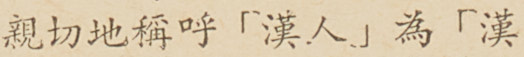親切地稱呼「漢人」為「漢
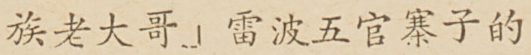族老大哥」雷波五官寨子的
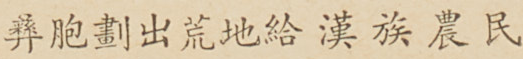彝胞劃出荒地給漢族農民
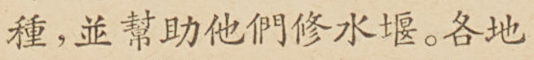種，並幫助他們修水堰。各地
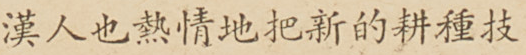漢人也熱情地把新的耕種技
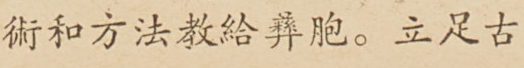術和方法教給彝胞。立足古
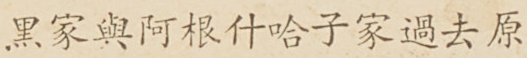黑家與阿根什哈子家過去原
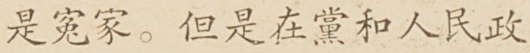是冤家。但是在黨和人民政
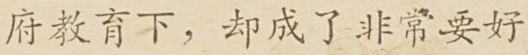府教育下，却成了非常要好
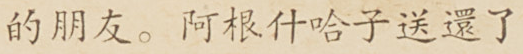的朋友。阿根什哈子送還了
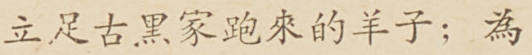立足古黑家跑來的羊子；為
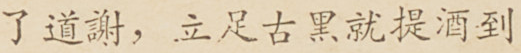了道謝，立足古黑就提酒到
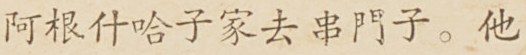阿根什哈子家去串門子。他
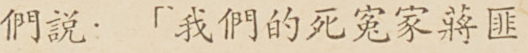們說：「我們的死冤家將匪
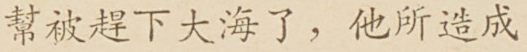幫被趕下大海了，他所造成
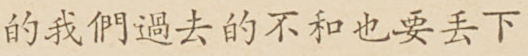的我們過去的不和也要丟下
